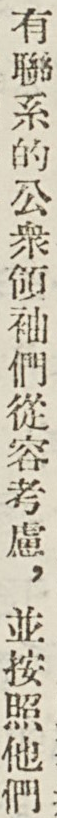有聯系的公衆領袖們從容考慮，並按照他們
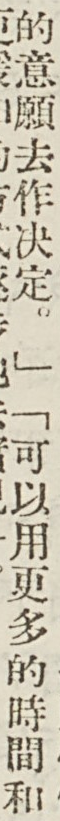的意願去做決定。」「可以用更多的時間和
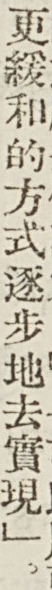更緩和的方式逐步地去實現」。
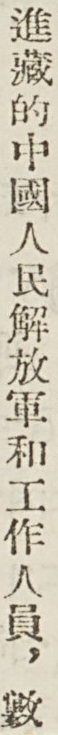進藏的中國人民解放軍和工作人員，數
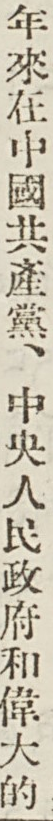年來在中國共產黨、中央人民政府和偉大的
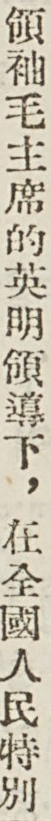領袖毛主席的英明領導下，在全國人民特別
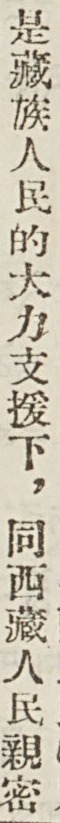是藏族人民的大力支援下，同西藏人民親密
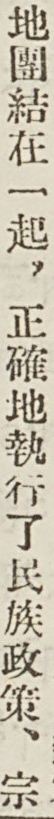地團結在一起，正確地執行了民族政策、宗
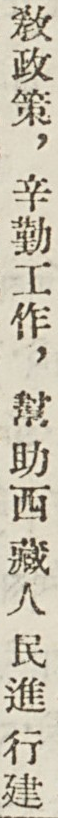敎政策，辛勤工作，幫助西藏人民進行建
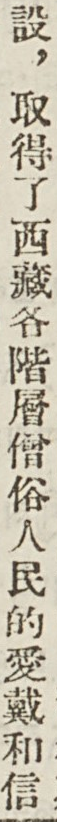設，取得了西藏各階層僧俗人民的愛戴和信
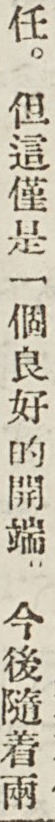任。但這僅是一個良好的開端。今後隨着兩
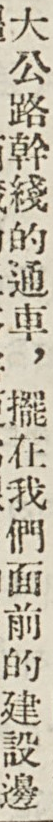大公路幹綫的通車，擺在我們面前的建設邊
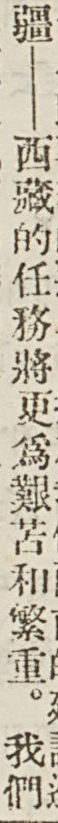疆——西藏的任務將更爲艱苦和繁重。我們
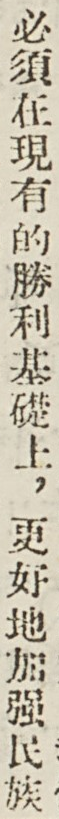必須在現有的勝利基礎上，更好地加強民族
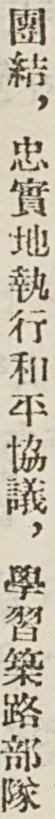團結，忠實地執行和平協議，學習築路部隊
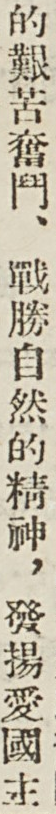的艱苦奮鬥、戰勝自然的精神，發揚愛國主
